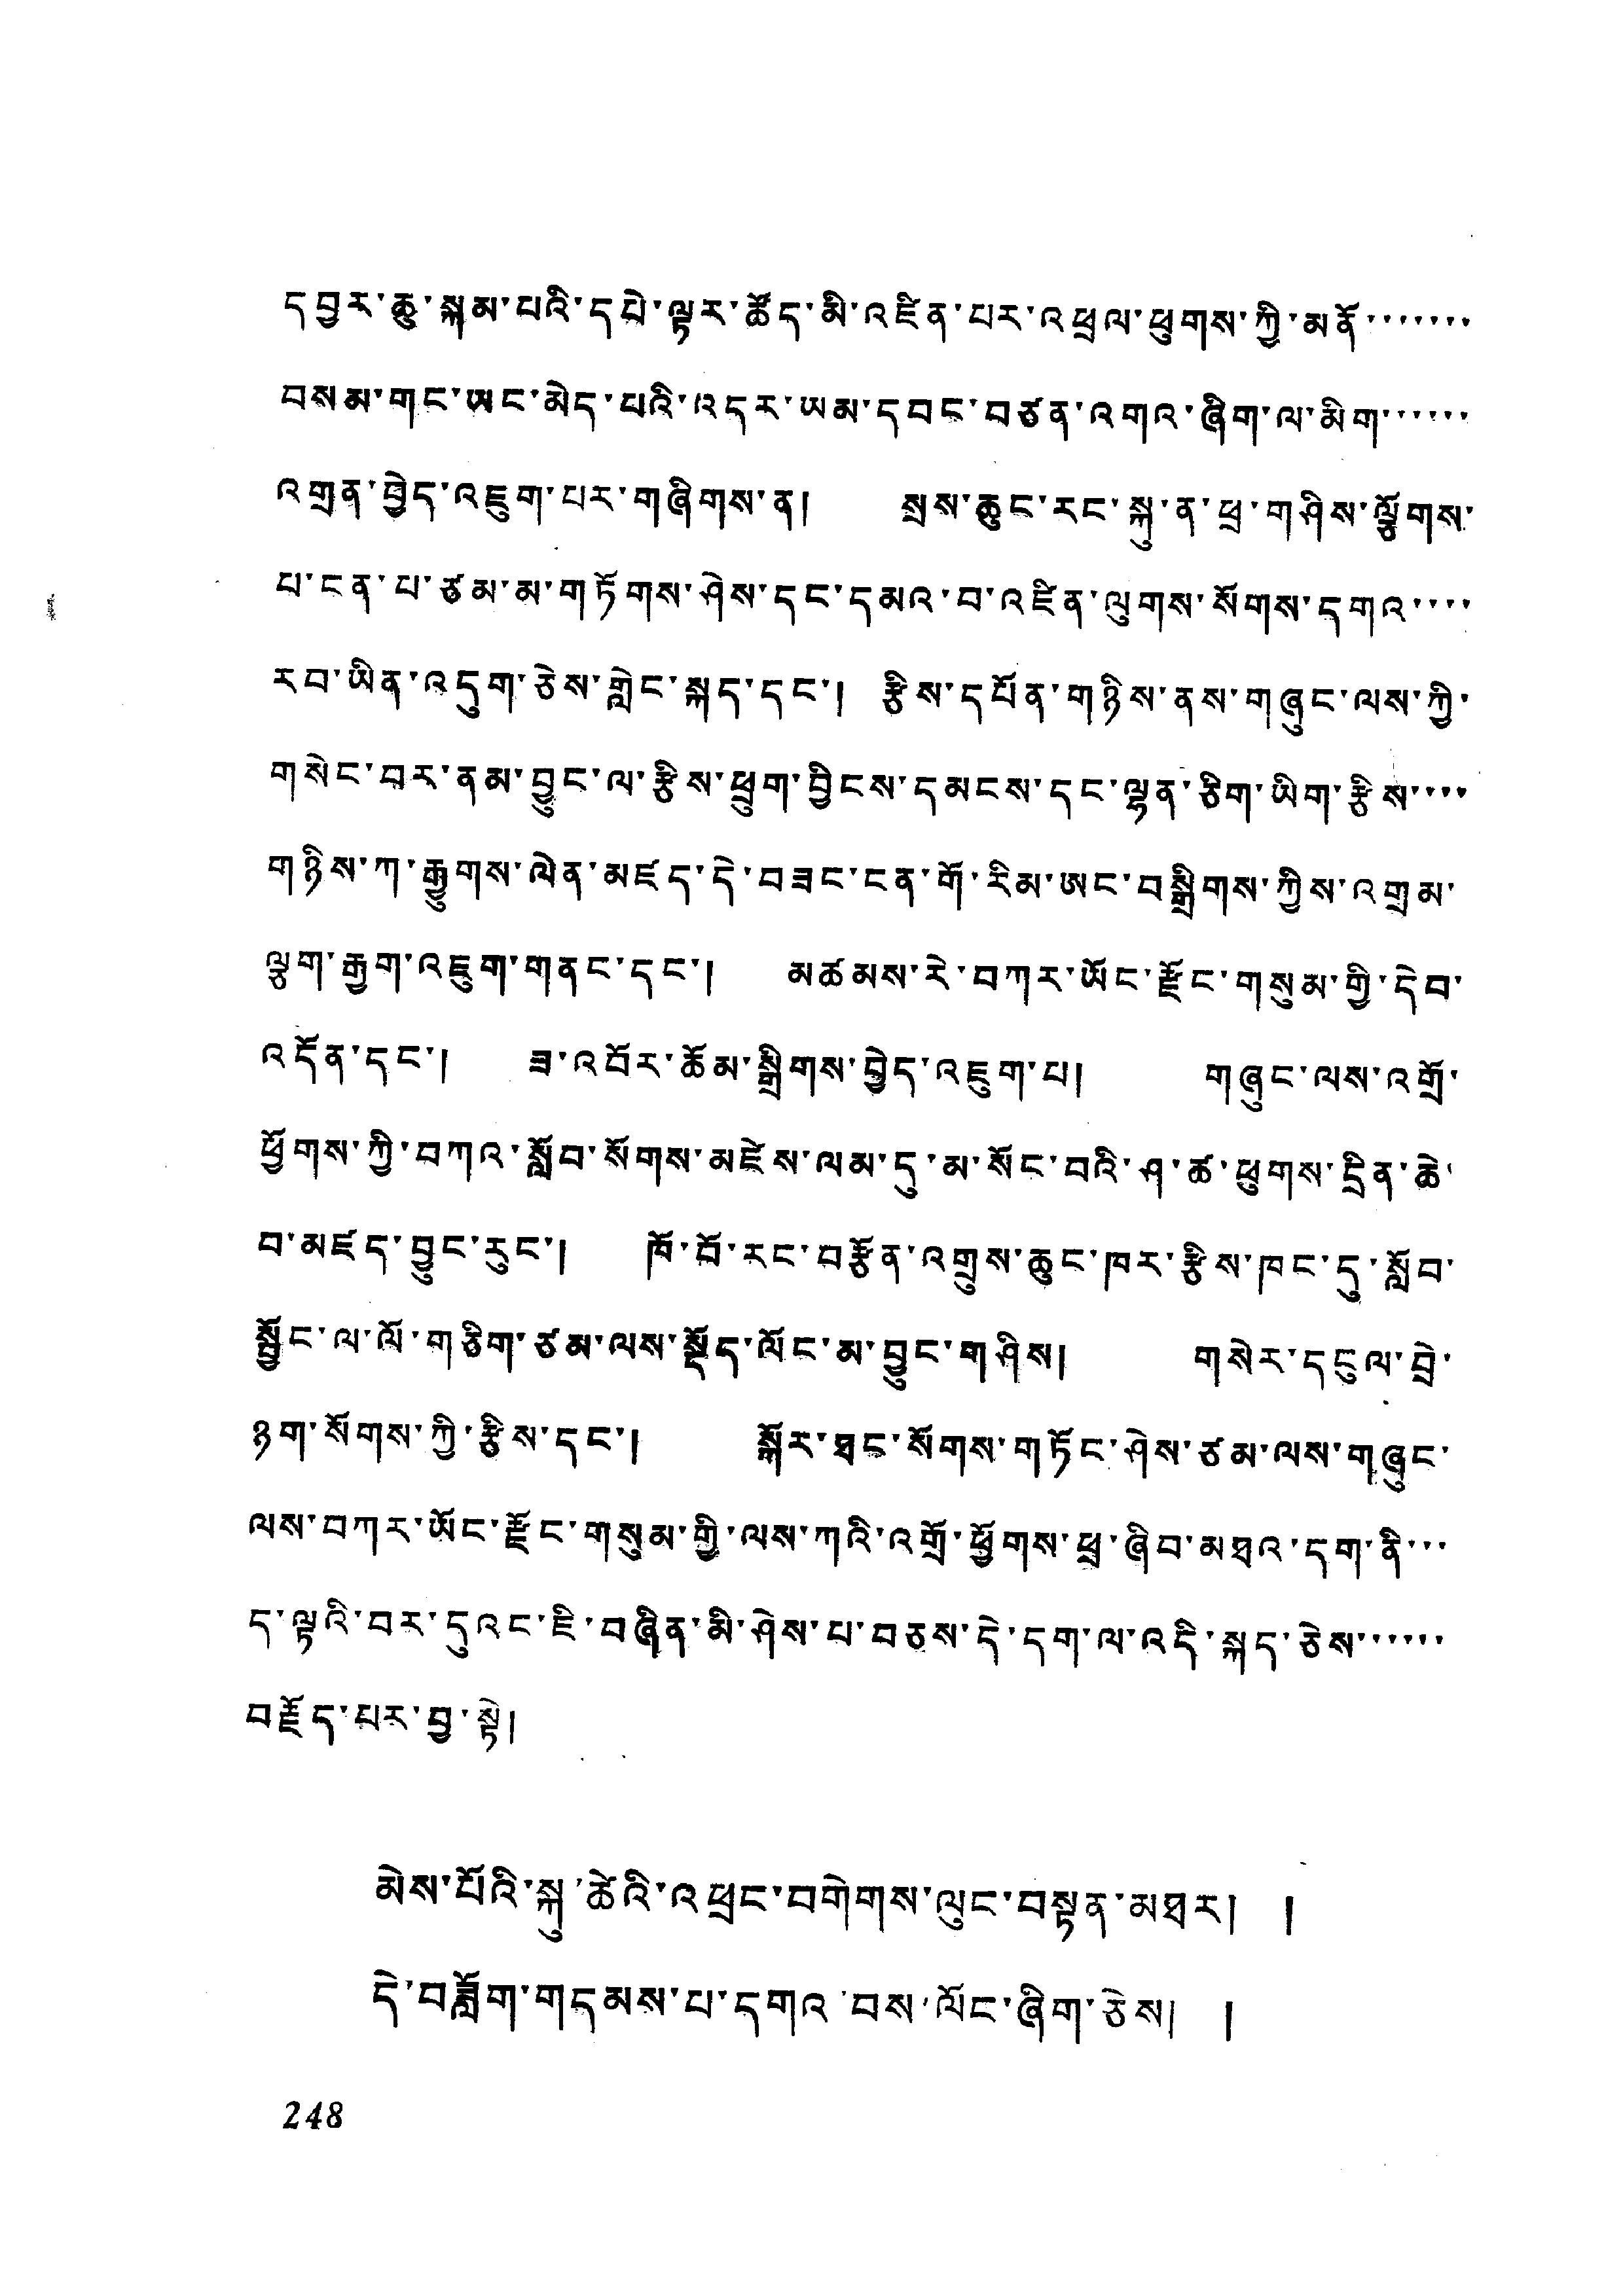དབྱར་ཆུ་སྐམ་པའི་དཔེ་ལྟར་ཚོད་མི་འཛིན་པར་འཕྲལ་ཕུགས་ཀྱི་མནོ་་་་་་་
བསམ་གང་ཡང་མེད་པའི་འདར་ཡམ་དབང་བཙན་འགའ་ཞིག་ལ་མིག་་་་་་
འགྲན་བྱེད་འཇུག་པར་གཞིགས་ན། སྲས་ཆུང་རང་སྐུ་ན་ཕྲ་གཤིས་ལྕོགས་
པ་ངན་པ་ཙམ་མ་གཏོགས་ཤེས་དང་དམའ་བ་འཛིན་ལུགས་སོགས་དགའ་་་་
རབ་ཡིན་འདུག་ཅེས་གླེང་སྐད་དང་། རྩིས་དཔོན་གཉིས་ནས་གཞུང་ལས་ཀྱི་
གསེང་བར་ནམ་བྱུང་ལ་རྩིས་ཕྲུག་བྱིངས་དམངས་དང་ལྷན་ཅིག་ཡིག་རྩིས་་་་
གཉིས་ཀ་རྒྱུགས་ལེན་མཛད་དེ་བཟང་ངན་གོ་རིམ་ཨང་བསྒྲིགས་ཀྱིས་འགྲམ་
ལྕག་རྒྱག་འཇུག་གནང་དང་། མཚམས་རེ་བཀར་ཡོང་རྫོང་གསུམ་གྱི་དེབ་
འདོན་དང་། ཟ་འབོར་ཆོམ་སྒྲིགས་བྱེད་འཇུག་པ། གཞུང་ལས་འགྲོ་
ཕྱོགས་ཀྱི་བཀའ་སློབ་སོགས་མཛེས་ལམ་དུ་མ་སོང་བའི་ཤ་ཚ་ཕུགས་དྲིན་ཆེ་
བ་མཛད་བྱུང་རུང་། ཁོ་བོ་རང་བརྩོན་འགྲུས་ཆུང་ཁར་རྩིས་ཁང་དུ་སློབ་
སྦྱོང་ལ་ལོ་གཅིག་ཙམ་ལས་སྡོད་ལོང་མ་བྱུང་གཤིས། གསེར་དངུལ་བྲེ་
ཉག་སོགས་ཀྱི་རྩིས་དང་། སྐོར་ཐང་སོགས་གཏོང་ཤེས་ཙམ་ལས་གཞུང་
ལས་བཀར་ཡོང་རྫོང་གསུམ་གྱི་ལས་ཀའི་འགྲོ་ཕྱོགས་ཕྲ་ཞིབ་མཐའ་དག་ནི་་་
ད་ལྟའི་བར་དུའང་ཇི་བཞིན་མི་ཤེས་པ་བཅས་དེ་དག་ལ་འདི་སྐད་ཅེས་་་་་་
བརྗོད་པར་བྱ་སྟེ།
མེས་པོའི་སྐུ་ཚེའི་འཕྲང་བགེགས་ལུང་བསྟན་མཐར། །
དེ་བཟློག་གདམས་པ་དགའ་བས་ལོང་ཞིག་ཅེས། །
248
